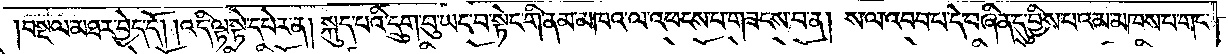བསྔལ་མཐར་བྱེད་དོ། །འདི་ལྟ་སྟེ་དཔེར་ན། སྐུད་པའི་དྲུག་བུ་ཡང་བ་སྟེང་གི་ནམ་མཁའ་ལ་འཕངས་པ་གཟངས་བ་ན། ས་ལ་འབབ་པ་དེ་བཞིན་དུ་བྱིས་པའམ་མཁས་པ་གང་
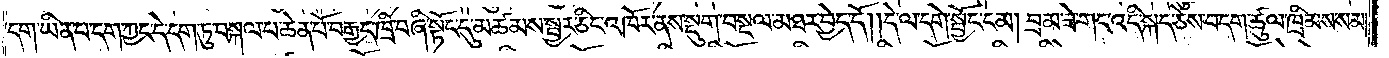དག་ཡིན་པ་དག་ཀྱང་དེ་དག་ཏུ་བསྐལ་པ་ཆེན་པོ་བརྒྱད་ཁྲི་བཞི་སྟོང་དུ་མཚམས་སྦྱར་ཅིང་འཁོར་ནས་སྡུག་བསྔལ་མཐར་བྱེད་དོ། །དེ་ལ་དགེ་སྦྱོང་ངམ། བྲམ་ཟེ་གང་འདི་སྐད་ཅེས་བདག་ཚུལ་ཁྲིམས་སམ།
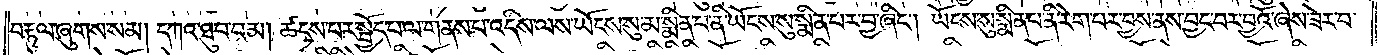བརྟུལ་ཞུགས་སམ། དཀའ་ཐུབ་བམ། ཚངས་པར་སྤྱོད་པ་ལ་གནས་པ་འདིས་ལས་ཡོངས་སུ་མ་སྨིན་པ་ནི་ཡོངས་སུ་སྨིན་པར་བྱ་ཞིང༌། ཡོངས་སུ་སྨིན་པ་ནི་རེག་པར་བྱས་ནས་བྱང་བར་བྱའོ་ཞེས་ཟེར་བ་
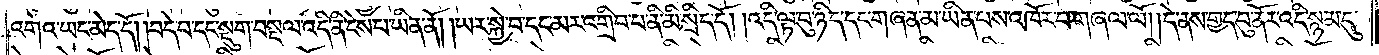འགའ་ཡང་མེད་དོ། །བདེ་བ་དང་སྡུག་བསྔལ་འདི་ནི་ངེས་པ་ཡིན་ནོ། །ཡར་སྐྱེ་བ་དང་མར་འགྲིབ་པ་ནི་མི་སྲིད་དོ། །འདི་ལྟ་བུ་ཉིད་དང་གཞན་མ་ཡིན་པས་འཁོར་བ་གཞལ་ལོ། །དེ་ནས་གྱད་བུ་ནོར་འདི་སྙམ་དུ་
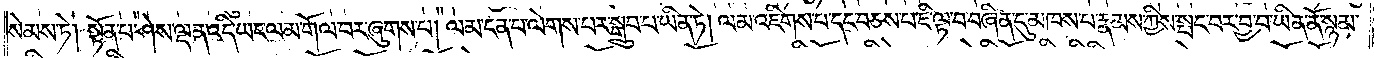སེམས་ཏེ། སྟོན་པ་ཤེས་ལྡན་འདི་ཡང་ལམ་གོལ་བར་ཞུགས་པ། ལམ་ངན་པ་ལེགས་པར་སྒྲུབ་པ་ཡིན་ཏེ། ལམ་འཇིགས་པ་དང་བཅས་པ་ཇི་ལྟ་བ་བཞིན་དུ་མཁས་པ་རྣམས་ཀྱིས་སྤང་བར་བྱ་བ་ཡིན་ནོ་སྙམ་
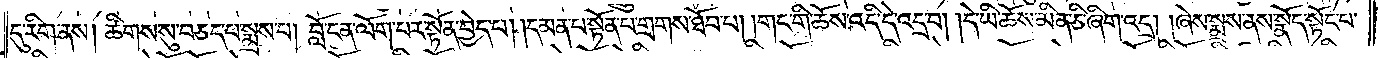དུ་རིག་ནས། ཚིགས་སུ་བཅད་པ་སྨྲས་པ། བློ་ངན་ལོག་པར་སྟོན་བྱེད་པ། །དམན་པ་སྟོན་པ་གྲགས་ཐོབ་པ། །གང་གི་ཆོས་འདི་དེ་འདྲ་བ། །དེ་ཡི་ཆོས་མིན་ཅི་ཞིག་འདྲ། །ཞེས་སྨྲས་ནས་སྣོད་སྟོང་པ་
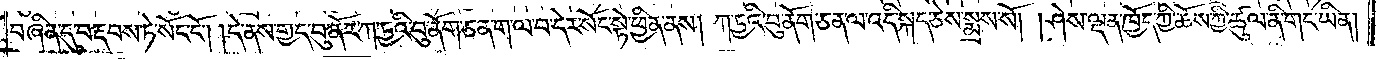བཞིན་དུ་བརྡབས་ཏེ་སོང་ངོ༌། །དེ་ནས་གྱད་བུ་ནོར་ཀ་ཏྱའི་བུ་ནོག་ཅན་ག་ལ་བ་དེར་སོང་སྟེ་ཕྱིན་ནས། ཀ་ཏྱའི་བུ་ནོག་ཅན་ལ་འདི་སྐད་ཅེས་སྨྲས་སོ། །ཤེས་ལྡན་ཁྱོད་ཀྱི་ཆོས་ཀྱི་ཚུལ་ནི་གང་ཡིན།
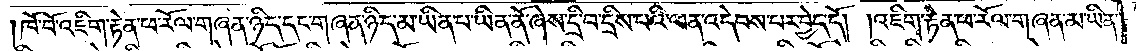ཁོ་བོ་འཇིག་རྟེན་ཕ་རོལ་གཞན་ཉིད་དང་གཞན་ཉིད་མ་ཡིན་པ་ཡིན་ནོ་ཞེས་དྲི་བ་དྲིས་པའི་ལན་འདེབས་པར་བྱེད་དོ། །འཇིག་རྟེན་ཕ་རོལ་གཞན་མ་ཡིན་
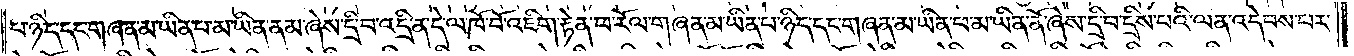པ་ཉིད་དང་གཞན་མ་ཡིན་པ་མ་ཡིན་ནམ་ཞེས་དྲི་བ་འདྲི་ན་དེ་ལ་ཁོ་བོ་འཇིག་རྟེན་ཕ་རོལ་གཞན་མ་ཡིན་པ་ཉིད་དང་གཞན་མ་ཡིན་པ་མ་ཡིན་ནོ་ཞེས་དྲི་བ་དྲིས་པའི་ལན་འདེབས་པར་
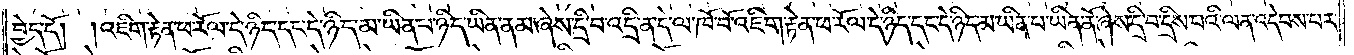བྱེད་དོ། །འཇིག་རྟེན་ཕ་རོལ་དེ་ཉིད་དང་དེ་ཉིད་མ་ཡིན་པ་ཉིད་ཡིན་ནམ་ཞེས་དྲི་བ་འདྲི་ན་དེ་ལ་ཁོ་བོ་འཇིག་རྟེན་ཕ་རོལ་དེ་ཉིད་དང་དེ་ཉིད་མ་ཡིན་པ་ཡིན་ནོ་ཞེས་དྲི་བ་དྲིས་པའི་ལན་འདེབས་པར་
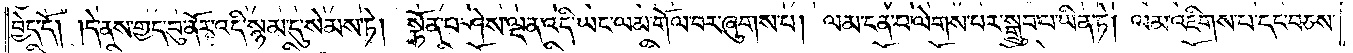བྱེད་དོ། །དེ་ནས་གྱད་བུ་ནོར་འདི་སྙམ་དུ་སེམས་ཏེ། སྟོན་པ་ཤེས་ལྡན་འདི་ཡང་ལམ་གོལ་བར་ཞུགས་པ། ལམ་ངན་པ་ལེགས་པར་སྒྲུབ་པ་ཡིན་ཏེ། ལམ་འཇིགས་པ་དང་བཅས་
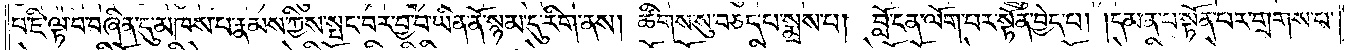པ་ཇི་ལྟ་བ་བཞིན་དུ་མཁས་པ་རྣམས་ཀྱིས་སྤང་བར་བྱ་བ་ཡིན་ནོ་སྙམ་དུ་རིག་ནས། ཚིགས་སུ་བཅད་པ་སྨྲས་པ། བློ་ངན་ལོག་པར་སྟོན་བྱེད་པ། །དམན་པ་སྟོན་པར་གྲགས་པ་
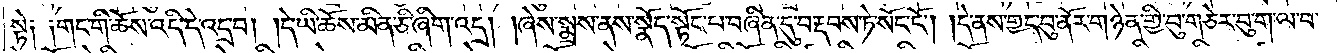སྟེ༑ ༑གང་གི་ཆོས་འདི་དེ་འདྲ་བ། །དེ་ཡི་ཆོས་མིན་ཅི་ཞིག་འདྲ། །ཞེས་སྨྲས་ནས་སྣོད་སྟོང་པ་བཞིན་དུ་བརྡབས་ཏེ་སོང་ངོ༌། །དེ་ནས་གྱད་བུ་ནོར་གཉེན་གྱི་བུ་གཅེར་བུ་ག་ལ་བ་
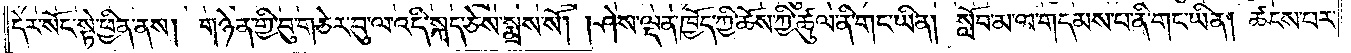དེར་སོང་སྟེ་ཕྱིན་ནས། གཉེན་གྱི་བུ་གཅེར་བུ་ལ་འདི་སྐད་ཅེས་སྨྲས་སོ། །ཤེས་ལྡན་ཁྱོད་ཀྱི་ཆོས་ཀྱི་ཚུལ་ནི་གང་ཡིན། སློབ་མ་ལ་གདམས་པ་ནི་གང་ཡིན། ཚངས་པར་
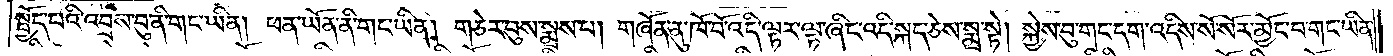སྤྱོད་པའི་འབྲས་བུ་ནི་གང་ཡིན། ཕན་ཡོན་ནི་གང་ཡིན། གཅེར་བུས་སྨྲས་པ། གཞོན་ནུ་ཁོ་བོ་འདི་ལྟར་ལྟ་ཞིང་འདི་སྐད་ཅེས་སྨྲ་སྟེ། སྐྱེས་བུ་གང་དག་འདིས་སོ་སོར་མྱོང་བ་གང་ཡིན་
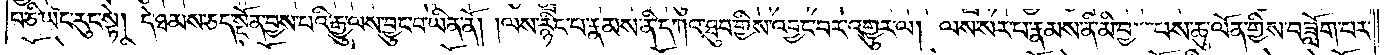པ་ཅི་ཡང་རུང་སྟེ། དེ་ཐམས་ཅད་སྔོན་བྱས་པའི་རྒྱུ་ལས་བྱུང་བ་ཡིན་ནོ། །ལས་རྙིང་པ་རྣམས་ནི་དཀའ་ཐུབ་གྱིས་འབྱང་བར་འགྱུར་ལ། ལས་སར་པ་རྣམས་ནི་མི་བྱ་པས་ཆུ་ལོན་གྱིས་བཟློག་པར་
